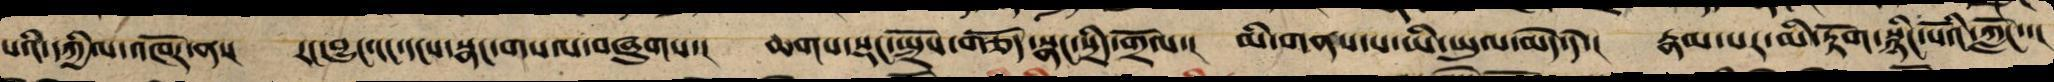པའི་དཀྱིལ་འཁོར་ན་། རང་བྱུང་ངང་དངས་སྣང་གསལ་བཞུགས་། ཆགས་སྡང་སྤྲོས་གཅོད་སྣང་སྲིད་གྲོལ་། མི་གནས་པ་ཡི་ཡུལ་མེད་དེ་། རྣམ་པར་མི་རྟོག་སྙིང་པོའི་ཀློང་་།
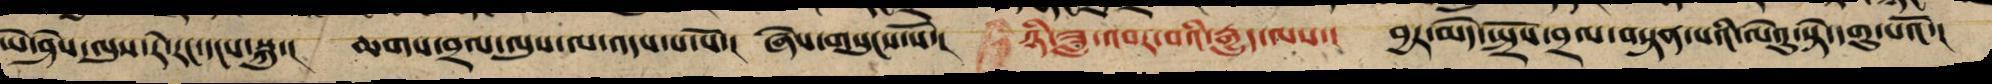ཡེ་ཤེས་ལུས་རེ་རང་དངས་སྐུ་། ཆགས་བྲལ་ལུས་ལ་འདས་པ་པོ་། ཞེས་གསུངས་སོ་། ཉི་ཟླ་འབར་བའི་རྒྱུད་ལས་། བྱར་མེད་སྤྲོས་བྲལ་བསྟན་པའི་ལེའུ་སྟེ་དགུ་པའོ་།
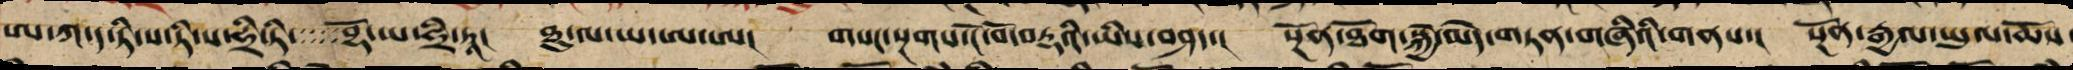ཨ་ཀ་ད་ཏི་ས་ཏི་ས་ཧྲི་ཏི་ བྷོ་ཡ་ཧྲི་ཏཱ། ཐུ་ལ་ཡ་ཨ་ཨ། གསང་སྔགས་ངོ་བོ་བརྡའི་ཡིས་བཤད་། སྔོན་ཐོག་སྐྱེ་མེད་གཏན་གཞིའི་གནས་། སྔོན་རྒྱལ་ཡུལ་ཆོས
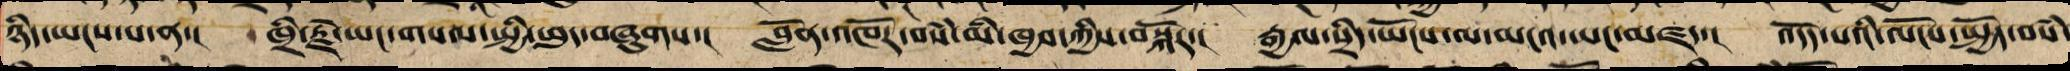ཉིད་ཡངས་པ་ན་། ཁྲི་རྗེ་ཡང་གསལ་སྤྱི་ཕུད་བཞུགས་། བློན་འཁོར་བསཾ་མི་ཁྱབ་ཀྱིས་བསྐོར་། རྒྱལ་སྲིད་ཡོངས་ལ་མངའ་ཡང་མཛད་། འདོད་པའི་ལོངས་སྤྱོད་བསཾ་
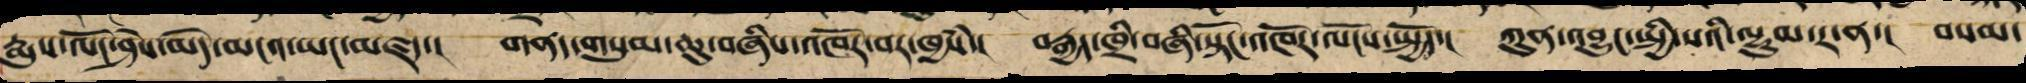རྨུས་ལོང་ཤེས་མེད་མངའ་ཡང་མཛད་། གནད་གསུམ་ཆུ་བཞིས་འཁོར་བར་འཁྱཾས་། བརྒྱད་ཁྲི་བཞི་སྟོང་འཁོར་ལོངས་སྤྱོད་། ཀུན་འབྱུང་སྤྱི་སའི་ལྡུམ་ར་ན་། བསམ་
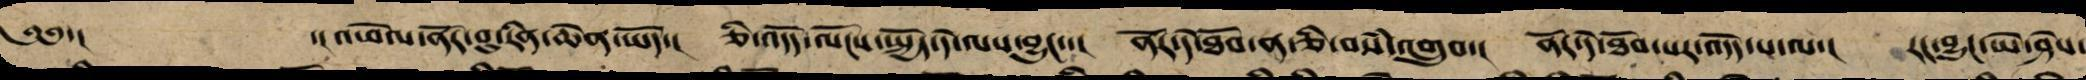༄༅་།   ་།འཕེལ་ནོར་བུ་རིན་ཆེན་ཡོད་། ཅི་འདོད་ལོངས་སྤྱོད་དེ་ལས་འབྱུང་་། ནོར་དེ་ཐོབ་ན་ཅི་བསཾ་འགྲུབ་། ནོར་དེ་ཐོབ་པར་འདོད་པ་ལ་། རང་བྱུང་ཡེ་ཤེས་
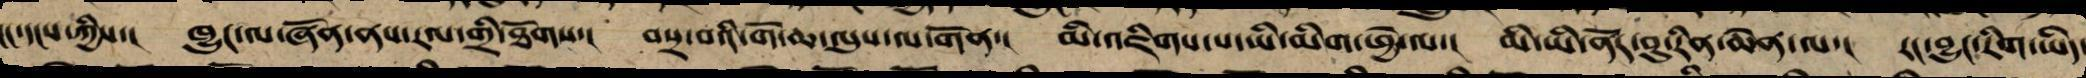ངང་དངས་ཀྱིས་། ཁྱུང་ལ་ཞོན་ནས་རལ་གྲི་ཐོགས་། བསྲ་བའི་གོ་ཆ་ལུས་ལ་གོན་། མི་འཇིགས་པ་ཡི་མིག་ཕྱེ་ལ་། མི་ཡི་ནོར་བུ་རིན་ཆེན་ལ་། རང་བྱུང་རིག་ཡིད་
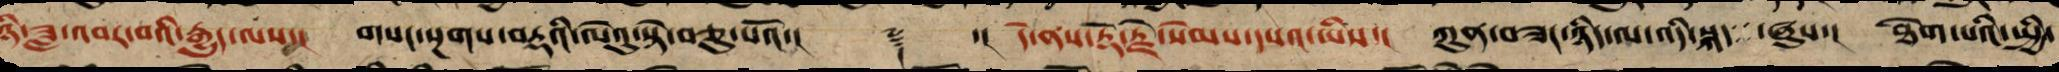ཉི་ཟླ་འབར་བའི་རྒྱུད་ལས་། གསང་སྔགས་བརྡའི་ལེའུ་སྟེ་བཅུ་པའོ་།། ༈ ་། དེ་ནས་རྡོ་རྗེ་སེམས་དཔའ་ཡིས་། ཀུན་བཟང་ཉིད་ལ་འདི་སྐད་ ཞུས་། ཐེག་པའི་སྤྱི་
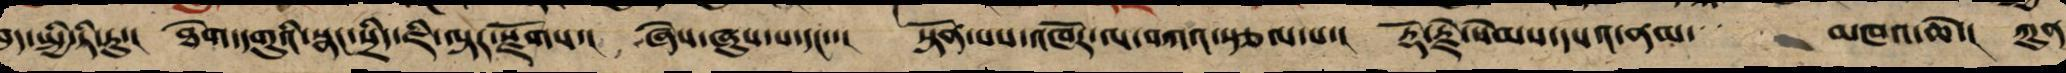ད་སྤྱི་ཏི་རུ་། ཐེག་དགུའི་སྣང་སྲིད་ཇི་ལྟར་རྫོགས་། ཞེས་ཞུས་པ་དང་་། སྟོན་པས་འཁོར་ལ་བཀའ་སྩལ་པ་། རྡོ་རྗེ་སེམས་དཔའ་ནམ་ མཁའ་ཆེ་། ཀུན
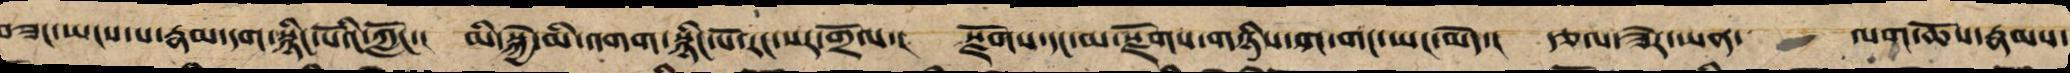བཟང་ཡངས་པ་རྣམ་དག་སྙིང་པོའི་ཀློང་། མི་སྐྱེ་མི་འགག་སྙིང་པོ་རང་སར་གྲོལ་། སྫོགས་དང་མ་སྫོགས་གཉིས་ག་གང་ཡང་མེད་། རྩལ་ཟེར་ཡན་ལག་ཆོས་རྣམས་
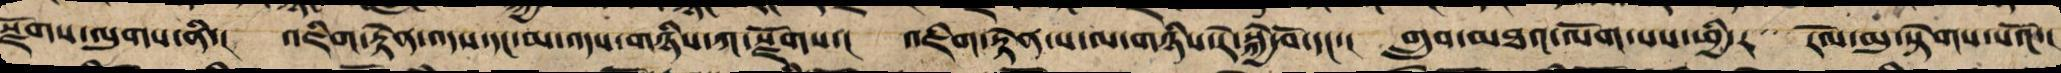སྫོགས་ལུགས་ནི་། འཇིག་རྟེན་འདས་དང་མ་འདས་གཉིས་ཀ་སྫོགས་། འཇིག་རྟེན་ས་ལ་གཉིས་ཏེ་སྐྱེ་བོ་དང་། གྲུབ་མཐའ་ལོག་པའི་ཕྱི་རོལ་མུ་སྟེགས་པའོ་།
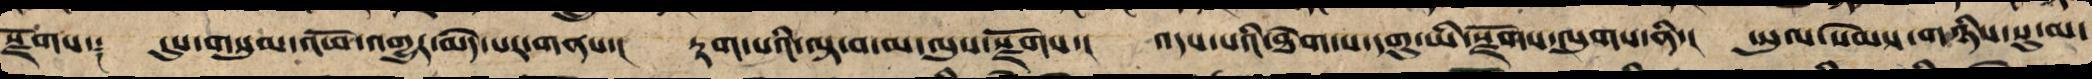སྫོགས༑ དུས་གསུམ་འཕོ་འགྱུར་མེད་པར་གནས་། རྟག་པའི་ལྟ་བ་མ་ལུས་སྫོགས་། འདས་པའི་ཐེག་པ་དགུ་ཡི་སྫོགས་ལུགས་ནི་། ཡུལ་སེམས་གཉིས་སུ་མ་
